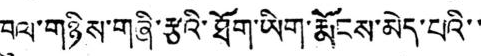ཁུལ་གཉིས་གཞི་རྩའི་ཐོག་ཡིག་རྨོངས་མེད་པའི་་
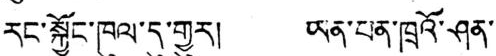རང་སྐྱོང་ཁུལ་དུ་གྱུར། ཡན་པན་ཁྲའོ་ཤན་
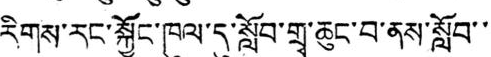རིགས་རང་སྐྱོང་ཁུལ་དུ་སློབ་གྲྭ་ཆུང་བ་ནས་སློབ་་
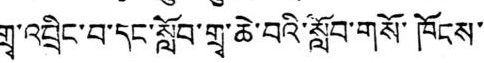གྲྭ་འབྲིང་བ་དང་སློབ་གྲྭ་ཆེ་བའི་སློབ་གསོ་ཁོངས་
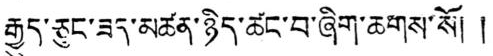རྒྱུད་ཅུང་ཟད་མཚན་ཉིད་ཚང་བ་ཞིག་ཆགས་སོ། །
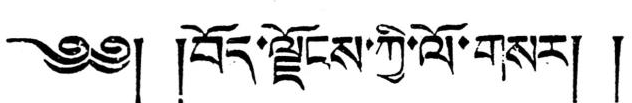༄༅། །བོད་ལྗོངས་ཀྱི་ལོ་གསར། །
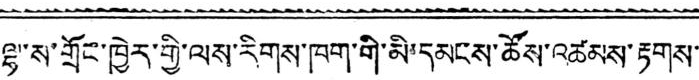ལྷ་ས་གྲོང་ཁྱེར་གྱི་ལས་རིགས་ཁག་གི་མི་དམངས་ཚོས་འཚམས་རྟགས་་
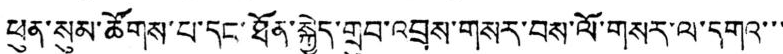ཕུན་སུམ་ཚོགས་པ་དང་ཐོན་སྐྱེད་གྲུབ་འབྲས་གསར་བས་ལོ་གསར་ལ་དགའ་་་
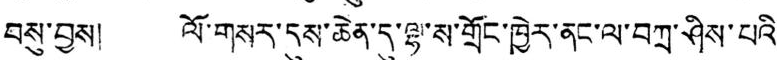བསུ་བྱས། ལོ་གསར་དུས་ཆེན་དུ་ལྷ་ས་གྲོང་ཁྱེར་ནང་ལ་བཀྲ་ཤིས་པའི་
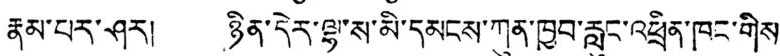རྣམ་པར་ཤར། ཉིན་དེར་ལྷ་ས་མི་དམངས་ཀུན་ཁྱབ་རླུང་འཕྲིན་ཁང་གིས་
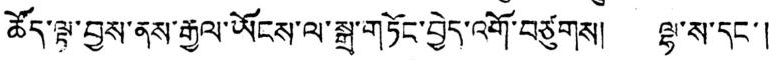ཚོད་ལྟ་བྱས་ནས་རྒྱལ་ཡོངས་ལ་སྒྲ་གཏོང་བྱེད་འགོ་བཙུགས། ལྷ་ས་དང་།
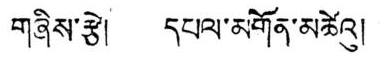གཞིས་རྩེ། དཔལ་མགོན་མཚེའུ།
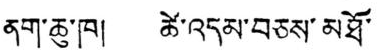ནག་ཆུ་ཁ། ཚེ་འདམ་བཅས་མཐོ་
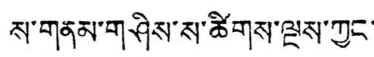ས་གནམ་གཤིས་ས་ཚིགས་ལྔས་ཀྱང་
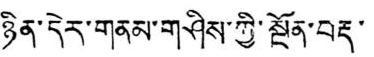ཉིན་དེར་གནམ་གཤིས་ཀྱི་སྔོན་བརྡ་
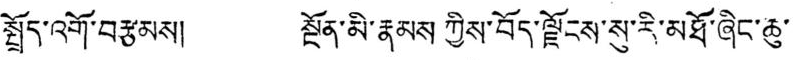སྤྲོད་འགོ་བརྩམས། སྔོན་མི་རྣམས ཀྱིས་བོད་ལྗོངས་སུ་རི་མཐོ་ཞིང་ཆུ་
